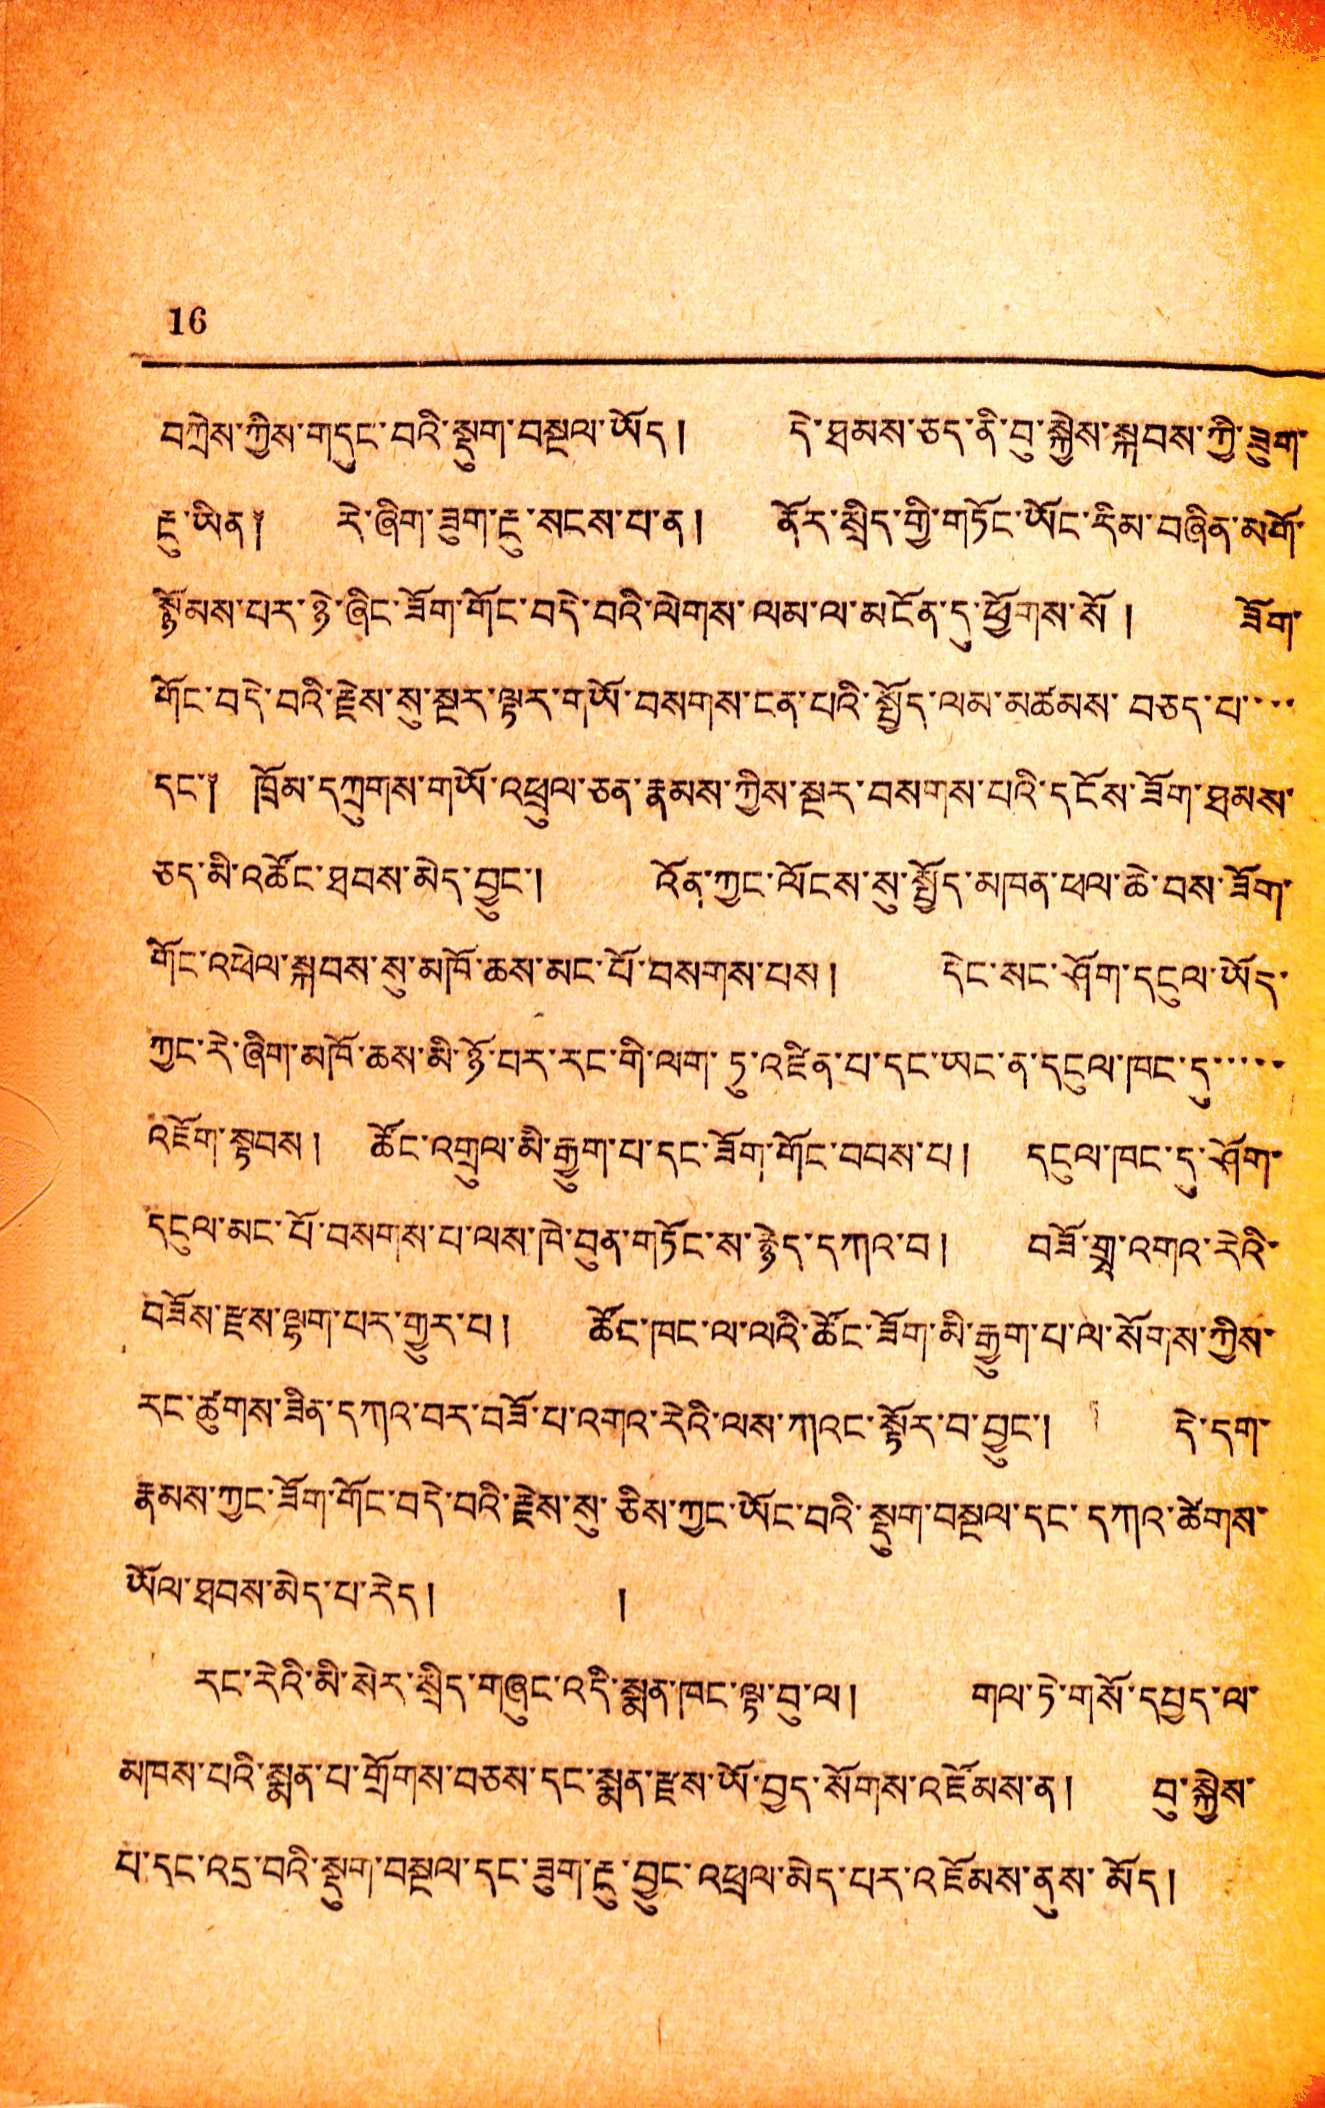16
བཀི་ཀྱིས་གདུང་བའི་སྡུག་བསྔལ་ཡོད། དེ་ཐམས་ཅད་ནི་བུ་སྐྱེས་སྐབས་ཀྱི་ཟུག་
རྔུ་ཡིན༐ རེ་ཞིག་ཟུག་རྔུ་སངས་པ་ན། ནོར་སྲིད་གྱི་གཏོང་ཡོང་རིམ་བཞིན་མགོ་
སྙོམས་པར་ཉེ་ཞིང་ཟོག་གོང་བདེ་བའི་ལེགས་ལམ་ལ་མངོན་དུ་ཕྱོགས་སོ ། ཟོག་
གོང་བདེ་བའི་རྗེས་སུ་སྔར་ལྟར་གཡོ་བསགས་ངན་པའི་སྤྱོན་ལམ་མཚམས་བཅད་པ་་་་
དང་༐ ཁྲོམ་དཀྲུགས་གཡོ་འཕྲུལ་ཅན་རྣམས་ཀྱིས་སྔར་བསགས་པའི་དངོས་ཟོག་ཐམས་
ཅད་མི་འཚོང་ཐབས་མེད་བྱུང་། འོན་ཀྱང་ལོངས་སུ་སྤྱོད་མཁན་ཕལ་ཆེ་བས་ཟོག་
གོང་འཕེལ་སྐབས་སུ་མཁོ་ཆས་མང་པོ་བསགས་པས། དེང་སང་ཤོག་དངུལ་ཡོད་
ཀྱང་རེ་ཞིག་མཁོ་ཆས་མི་ཉོ་བར་རང་གི་ལག་ཏུ་འཛིན་པ་དང་ཡང་ན་དངུལ་ཁང་དུ་་་་་
འཇོག་སྟབས། ཚོང་འགྲུལ་མི་རྒྱུག་པ་དང་ཟོག་གོང་བབས་པ། དངུལ་ཁང་དུ་ཤོག་
དངུལ་མང་པོ་བསགས་པ་ལས་ཁེ་བུན་གཏོང་ས་རྙེད་དཀའ་བ། བཟོ་གྲྭ་འགའ་རེའི་
བཟོས་རྫས་ལྷག་པར་གྱུར་པ། ཚོང་ཁང་ལ་ལའི་ཚིང་ཟོག་མི་རྒྱུག་པ་ལ་སོགས་ཀྱིས་
རང་ཚུགས་ཟིན་དཀའ་བར་བཟོ་པ་འགའ་རེའི་ལས་ཀའང་སྟོར་བ་བྱུང་། དེ་དག་
རྣམས་ཀྱང་ཟོག་གོང་བདེ་བའི་རྗེས་སུ་ཅིས་ཀྱང་ཡོང་བའི་སྡུག་བསྔལ་དང་དཀའ་ཚེགས་
ཡོལ་ཐབས་མེད་པ་རེད། །
རང་རེའི་མི་སེར་སྲིད་གཞུང་འདི་སྨན་ཁང་ལྟ་བུ་ལ། གལ་ཏེ་གསོ་དཔྱད་ལ་
མཁས་པའི་སྨན་པ་གྲོགས་བཅས་དང་སྨན་རྫས་ཡོ་བྱད་སོགས་འཛོམས་ན། བུ་སྐྱེས་
པ་དང་འདྲ་བའི་སྡུག་བསྔལ་དང་ཟུག་རྔུ་བྱུང་འཕྲལ་མེད་པར་འཇོམས་ནུས་མོད།
